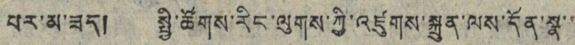པར་མ་ཟད། སྤྱི་ཚོགས་རིང་ལུགས་ཀྱི་འཛུགས་སྐྲུན་ལས་དོན་སྣ་་
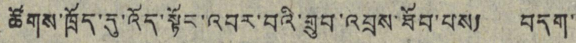ཚོགས་ཁྲོད་དུ་འོད་སྟོང་འབར་བའི་གྲུབ་འབྲས་ཐོབ་པས། བདག་
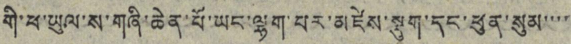གི་ཕ་ཡུལ་ས་གཞི་ཆེན་པོ་ཡང་ལྷག་པར་མཛེས་སྡུག་དང་ཕུན་སུམ་་་་
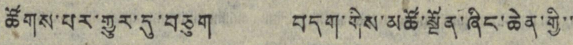ཚོགས་པར་གྱུར་དུ་བཅུག བདག་གིས་མཚོ་སྔོན་ཞིང་ཆེན་གྱི་་
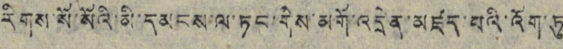རིགས་སོ་སོའི་མི་དམངས་ལ་ཏང་གིས་མགོ་འདྲེན་མཛད་པའི་འོག་ཏུ
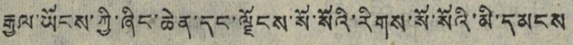རྒྱལ་ཡོངས་ཀྱི་ཞིང་ཆེན་དང་ལྗོངས་སོ་སོའི་རིགས་སོ་སོའི་མི་དམངས
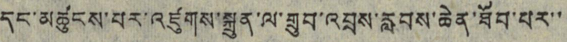དང་མཚུངས་པར་འཛུགས་སྐྲུན་ལ་གྲུབ་འབྲས་རླབས་ཆེན་ཐོབ་པར་་
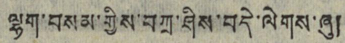ལྷག་བསམ་གྱིས་བཀྲ་ཤིས་བདེ་ལེགས་ཞུ།
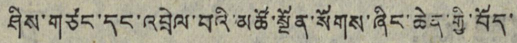ཤིས་གཙང་དང་འབྲེལ་བའི་མཚོ་སྔོན་སོགས་ཞིང་ཆེན་གྱི་བོད་
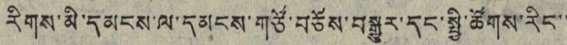རིགས་མི་དམངས་ལ་དམངས་གཙོ་བཅོས་བསྒྱུར་དང་སྤྱི་ཚོགས་རིང་་
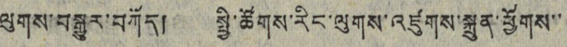ལུགས་བསྒྱུར་བཀོད། སྤྱི་ཚོགས་རིང་ལུགས་འཛུགས་སྐྲུན་ཕྱོགས་་
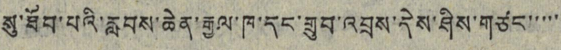སུ་ཐོབ་པའི་རླབས་ཆེན་རྒྱལ་ཁ་དང་གྲུབ་འབྲས་དེས་ཤིས་གཙང་་་་་
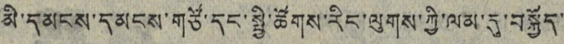མི་དམངས་དམངས་གཙོ་དང་སྤྱི་ཚོགས་རིང་ལུགས་ཀྱི་ལམ་དུ་བསྐྱོད་
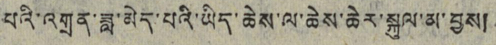པའི་འགྲན་ཟླ་མེད་པའི་ཡིད་ཆེས་ལ་ཆེས་ཆེར་སྐུལ་མ་བྱས།
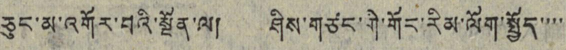ཅུང་མ་འགོར་བའི་སྔོན་ལ། ཤིས་གཙང་གི་གོང་རིམ་ལོག་སྤྱོད་་་་
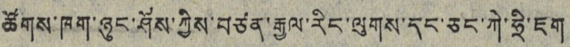ཚོགས་ཁག་ཉུང་ཤོས་ཀྱིས་བཙན་རྒྱལ་རིང་ལུགས་དད་ཅང་ཀེ་ཧྲི་ཇག
